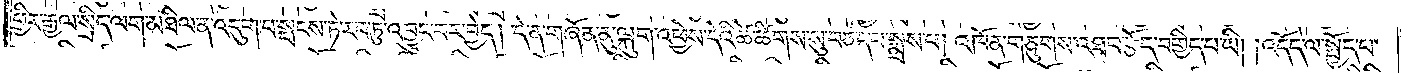ཕྱིར་རྒྱལ་སྲིད་ལག་མཐིལ་ན་འདུག་པ་སྤངས་ཏེ་རབ་ཏུ་འབྱུང་བར་བྱེད། དེ་ན་གཞོན་ནུ་ལྐུག་འཕྱེས་དེའི་ཚེ་ཚིགས་སུ་བཅད་པ་སྨྲས་པ། འཁོན་གཅུགས་འཐབ་རྩོད་བགྱིད་པ་ཡི། །འདོད་ལ་སྤྱོད་པ་
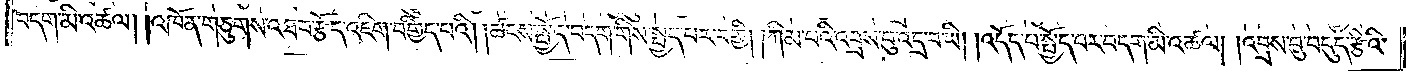བདག་མི་འཚལ། །འཁོན་གཅུགས་འཐབ་རྩོད་འཇིག་བགྱིད་པའི། །ཚངས་སྤྱོད་བདག་གིས་སྤྱད་པར་བགྱི། །ཀིམ་པའི་འབྲས་བུ་འདྲ་བ་ཡི། །འདོད་པ་སྤྱོད་པར་བདག་མི་འཚལ། །འབྲས་བུ་བདུད་རྩིའི་
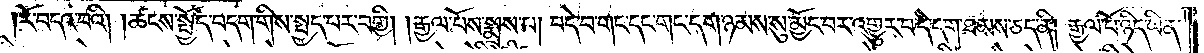རོ་བདའ་བའི། །ཚངས་སྤྱོད་བདག་གིས་སྤྱད་པར་བགྱི། །རྒྱལ་པོས་སྨྲས་པ། བདེ་བ་གང་དང་གང་དག་ཉམས་སུ་མྱོང་བར་འགྱུར་བ་དེ་དག་ཐམས་ཅད་ནི། རྒྱལ་པོ་ཉིད་ཡིན་
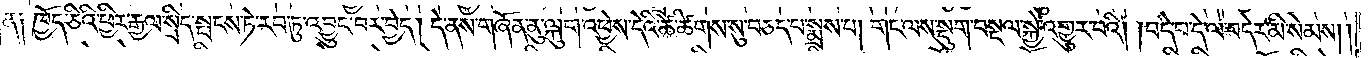ན༑ ཁྱོད་ཅིའི་ཕྱིར་རྒྱལ་སྲིད་སྤངས་ཏེ་རབ་ཏུ་འབྱུང་བར་བྱེད། དེ་ནས་གཞོན་ནུ་ལྐུག་འཕྱེས་དེའི་ཚེ་ཚིགས་སུ་བཅད་པ་སྨྲས་པ། གང་ལས་སྡུག་བསྔལ་སྐྱེ་འགྱུར་བའི། །བདེ་བ་དེ་ལ་བདེར་མི་སེམས། །
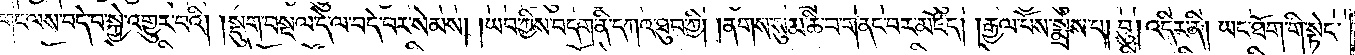གང་ལས་བདེ་བ་སྐྱེ་འགྱུར་བའི། །སྡུག་བསྔལ་དེ་ལ་བདེ་བར་སེམས། །ཡབ་ཀྱིས་བདག་ནི་དཀའ་ཐུབ་ཀྱི། །ནགས་སུ་མཆི་བ་གནང་བར་མཛོད། །རྒྱལ་པོས་སྨྲས་པ། བུ། འདིར་ནི། ཡང་ཐོག་གི་སྟེང་
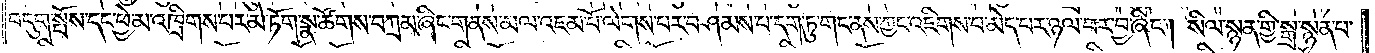བདུག་སྤོས་དང་ཕྱེ་མ་འཁྲིགས་པར་མེ་ཏོག་སྣ་ཚོགས་བཀྲམ་ཞིང་གནས་མལ་འཇམ་པོ་ལེགས་པར་བཤམས་པ་དག་ཏུ་གང་ནས་ཀྱང་འཇིགས་པ་མེད་པར་ཉལ་བར་བྱ་ཞིང༌། སིལ་སྙན་གྱི་སྒྲ་སྙན་པ་
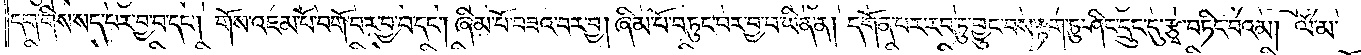དག་གིས་སད་པར་བྱ་བ་དང༌། གོས་འཇམ་པོ་བགོ་བར་བྱ་བ་དང༌། ཞིམ་པོ་བཟའ་བར་བྱ། ཞིམ་པོ་བཏུང་བར་བྱ་བ་ཡིན་ན། དགོན་པར་རབ་ཏུ་བྱུང་བས་རྟག་ཏུ་ཤིང་དྲུང་དུ་རྩྭ་བཏིང་བའམ། ལོ་མ་
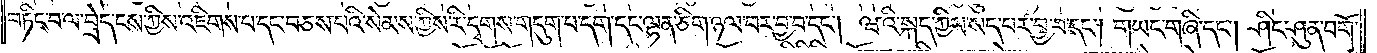བཏིང་བ་ལ་བྲེད་ངས་ཀྱིས་འཇིགས་པ་དང་བཅས་པའི་སེམས་ཀྱིས་རི་དྭགས་གདུག་པ་དག་དང་ལྷན་ཅིག་ཉལ་བར་བྱ་བ་དང༌། ཝའི་སྐད་ཀྱིས་སད་པར་བྱ་བ་དང༌། གཡང་གཞི་དང༌། ཤིང་ཤུན་བགོ་
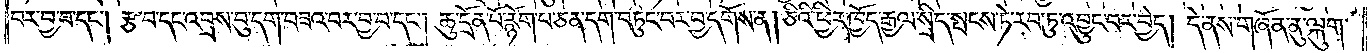བར་བྱ་བ་དང༌། རྩ་བ་དང་འབྲས་བུ་དག་བཟའ་བར་བྱ་བ་དང༌། ཆུ་དྲོན་པོ་རྙོག་པ་ཅན་དག་བཏུང་བར་བྱ་དགོས་ན། ཅིའི་ཕྱིར་ཁྱོད་རྒྱལ་སྲིད་སྤངས་ཏེ་རབ་ཏུ་འབྱུང་བར་བྱེད། དེ་ནས་གཞོན་ནུ་ལྐུག་
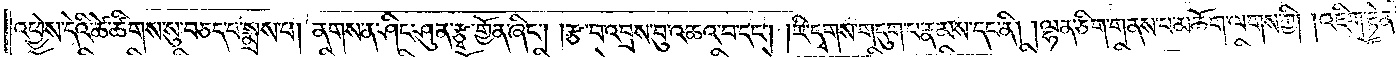འཕྱེས་དེའི་ཚེ་ཚིགས་སུ་བཅད་པ་སྨྲས་པ། ནགས་ན་ཤིང་ཤུན་རྩྭ་གྱོན་ཞིང༌། །རྩ་བ་འབྲས་བུ་འཆའ་བ་དང༌། །རི་དྭགས་གདུག་པ་རྣམས་དང་ནི། །ལྷན་ཅིག་གནས་པ་མཆོག་ལགས་ཀྱི། །འཇིག་རྟེན་
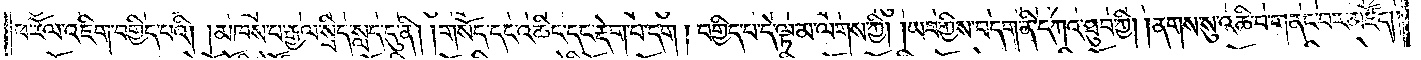ཕ་རོལ་འཇིག་བགྱིད་པའི། །མཁས་པ་རྒྱལ་སྲིད་སླད་དུ་ནི། །གསོད་དང་འཆིང་དང་རྡེག་པ་དག ། བགྱིད་པ་དེ་ལྟ་མ་ལགས་ཀྱི། །ཡབ་ཀྱིས་བདག་ནི་དཀའ་ཐུབ་ཀྱི། །ནགས་སུ་འཆི་བ་གནང་བར་མཛོད༎
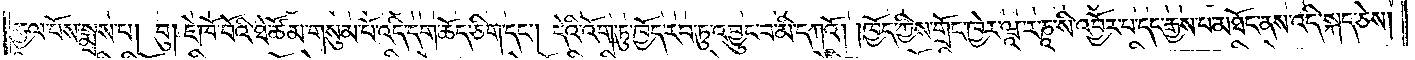རྒྱལ་པོས་སྨྲས་པ། བུ། ཇེ་ཁོ་བོའི་ཐེ་ཚོམ་གསུམ་པོ་འདི་དག་ཆོད་ཅིག་དང༌། དེའི་འོག་ཏུ་ཁྱོད་རབ་ཏུ་འབྱུང་བ་མི་དཀའོ། །ཁྱོད་ཀྱིས་གྲོང་ཁྱེར་ཝཱ་ར་ཎ་སི་འབྱོར་པ་དང་རྒྱས་པ་མཐོང་ནས་འདི་སྐད་ཅེས།
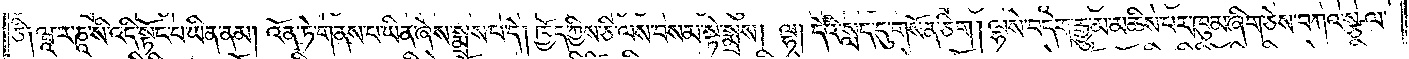ཅི༑ ཝཱ་ར་ཎཱ་སི་འདི་སྟོང་པ་ཡིན་ནམ། འོན་ཏེ་གནས་པ་ཡིན་ཞེས་སྨྲས་པ་དེ། ཁྱོད་ཀྱིས་ཅི་ལས་བསམ་སྟེ་སྨྲས། ལྷ། དེའི་སླད་དུ་གསོན་ཅིག། ལྷས་བདག་རྒྱུ་མ་མཆིས་པར་ཁུམ་ཞིག་ཅེས་བཀའ་སྩལ་
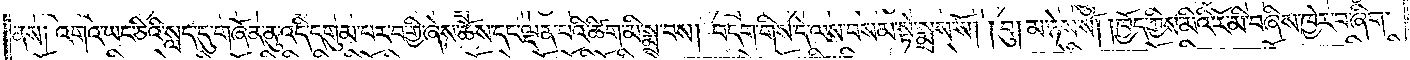ནས། འགའ་ཡང་ཅིའི་སླད་དུ་གཞོན་ནུ་འདི་དགུམ་པར་བགྱི་ཞེས་ཆོས་དང་ལྡན་པའི་ཚིག་མི་སྨྲ་བས། བདག་གིས་དེ་ལས་བསམ་སྟེ་སྨྲས་སོ། །བུ། མ་ཉེས་སོ། །ཁྱོད་ཀྱིས་མིའི་རོ་མི་བཞིས་ཁྱེར་བ་ཞིག་
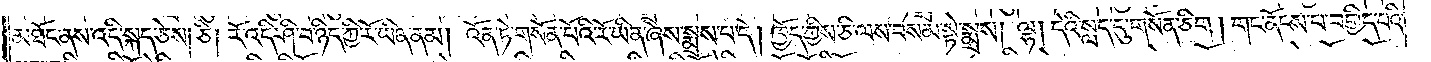མཐོང་ནས་འདི་སྐད་ཅེས། ཅི། རོ་འདི་ཤི་བ་ཉིད་ཀྱི་རོ་ཡིན་ནམ། འོན་ཏེ་གསོན་པོའི་རོ་ཡིན་ཞེས་སྨྲས་པ་དེ། ཁྱོད་ཀྱིས་ཅི་ལས་བསམ་སྟེ་སྨྲས། ལྷ། དེའི་སླད་དུ་གསོན་ཅིག། གང་ནོངས་པ་བགྱིད་པའི་
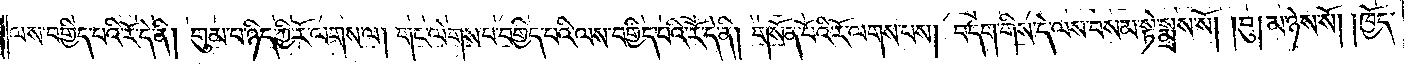ལས་བགྱིད་པའི་རོ་དེ་ནི། གུམ་པ་ཉིད་ཀྱི་རོ་ལགས་ལ། གང་ལེགས་པ་བགྱིད་པའི་ལས་བགྱིད་པའི་རོ་དེ་ནི། གསོན་པོའི་རོ་ལགས་པས། བདག་གིས་དེ་ལས་བསམ་སྟེ་སྨྲས་སོ། །བུ། མ་ཉེས་སོ། །ཁྱོད་
